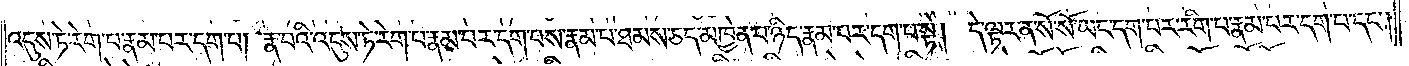འདུས་ཏེ་རེག་པ་རྣམ་པར་དག་པ། རྣ་བའི་འདུས་ཏེ་རེག་པ་རྣམ་པར་དག་པས་རྣམ་པ་ཐམས་ཅད་མཁྱེན་པ་ཉིད་རྣམ་པར་དག་པ་སྟེ། དེ་ལྟར་ན་སོ་སོ་ཡང་དག་པར་རིག་པ་རྣམ་པར་དག་པ་དང༌།
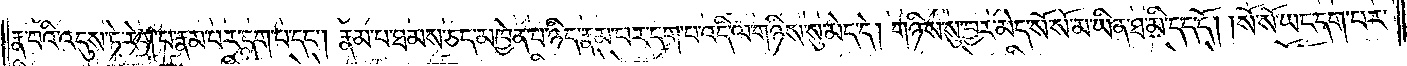རྣ་བའི་འདུས་ཏེ་རེག་པ་རྣམ་པར་དག་པ་དང༌། རྣམ་པ་ཐམས་ཅད་མཁྱེན་པ་ཉིད་རྣམ་པར་དག་པ་འདི་ལ་གཉིས་སུ་མེད་དེ། གཉིས་སུ་བྱར་མེད་སོ་སོ་མ་ཡིན་ཐ་མི་དད་དོ། །སོ་སོ་ཡང་དག་པར་
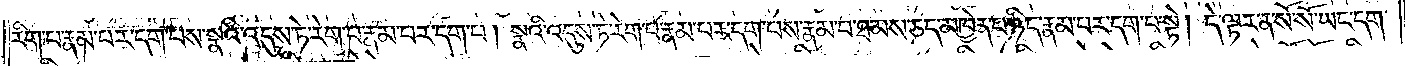རིག་པ་རྣམ་པར་དག་པས་སྣའི་འདུས་ཏེ་རེག་པ་རྣམ་པར་དག་པ། སྣའི་འདུས་ཏེ་རེག་པ་རྣམ་པར་དག་པས་རྣམ་པ་ཐམས་ཅད་མཁྱེན་པ་ཉིད་རྣམ་པར་དག་པ་སྟེ། དེ་ལྟར་ན་སོ་སོ་ཡང་དག་
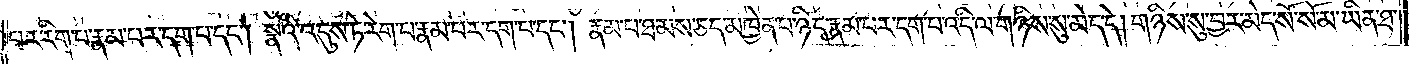པར་རིག་པ་རྣམ་པར་དག་པ་དང༌། སྣའི་འདུས་ཏེ་རེག་པ་རྣམ་པར་དག་པ་དང༌། རྣམ་པ་ཐམས་ཅད་མཁྱེན་པ་ཉིད་རྣམ་པར་དག་པ་འདི་ལ་གཉིས་སུ་མེད་དེ། གཉིས་སུ་བྱར་མེད་སོ་སོ་མ་ཡིན་ཐ་
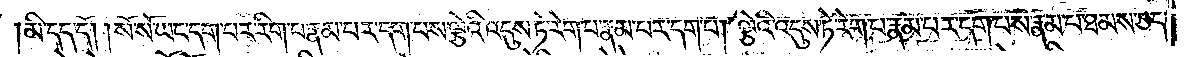མི་དད་དོ། །སོ་སོ་ཡང་དག་པར་རིག་པ་རྣམ་པར་དག་པས་ལྕེའི་འདུས་ཏེ་རེག་པ་རྣམ་པར་དག་པ། ལྕེའི་འདུས་ཏེ་རེག་པ་རྣམ་པར་དག་པས་རྣམ་པ་ཐམས་ཅད་
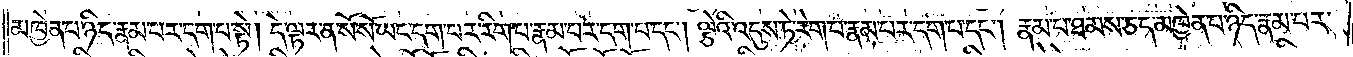མཁྱེན་པ་ཉིད་རྣམ་པར་དག་པ་སྟེ། དེ་ལྟར་ན་སོ་སོ་ཡང་དག་པར་རིག་པ་རྣམ་པར་དག་པ་དང༌། ལྕེའི་འདུས་ཏེ་རེག་པ་རྣམ་པར་དག་པ་དང༌། རྣམ་པ་ཐམས་ཅད་མཁྱེན་པ་ཉིད་རྣམ་པར་
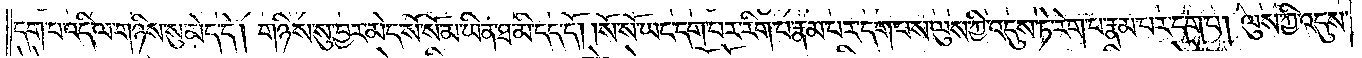དག་པ་འདི་ལ་གཉིས་སུ་མེད་དེ། གཉིས་སུ་བྱར་མེད་སོ་སོ་མ་ཡིན་ཐ་མི་དང་དོ། །སོ་སོ་ཡང་དག་པར་རིག་པ་རྣམ་པར་དག་པས་ལུས་ཀྱི་འདུས་ཏེ་རེག་པ་རྣམ་པར་དག་པ། ལུས་ཀྱི་འདུས་
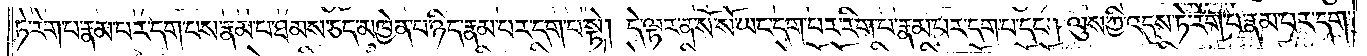ཏེ་རེག་པ་རྣམ་པར་དག་པས་རྣམ་པ་ཐམས་ཅད་མཁྱེན་པ་ཉིད་རྣམ་པར་དག་པ་སྟེ། དེ་ལྟར་ན་སོ་སོ་ཡང་དག་པར་རིག་པ་རྣམ་པར་དག་པ་དང༌། ལུས་ཀྱི་འདུས་ཏེ་རེག་པ་རྣམ་པར་དག་
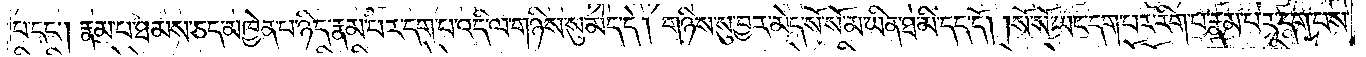པ་དང༌། རྣམ་པ་ཐམས་ཅད་མཁྱེན་པ་ཉིད་རྣམ་པར་དག་པ་འདི་ལ་གཉིས་སུ་མེད་དེ། གཉིས་སུ་བྱར་མེད་སོ་སོ་མ་ཡིན་ཐ་མི་དད་དོ། །སོ་སོ་ཡང་དག་པར་རིག་པ་རྣམ་པར་དག་པས་
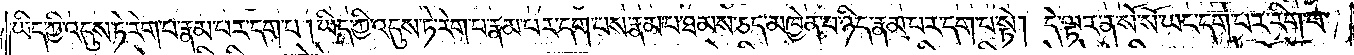ཡིད་ཀྱི་འདུས་ཏེ་རེག་པ་རྣམ་པར་དག་པ། ཡིད་ཀྱི་འདུས་ཏེ་རེག་པ་རྣམ་པར་དག་པས་རྣམ་པ་ཐམས་ཅད་མཁྱེན་པ་ཉིད་རྣམ་པར་དག་པ་སྟེ། དེ་ལྟར་ན་སོ་སོ་ཡང་དག་པར་རིག་པ་
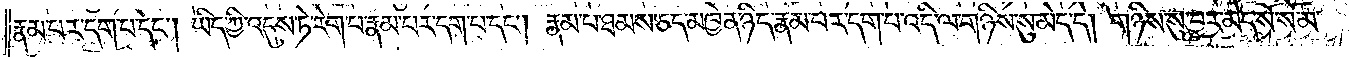རྣམ་པར་དག་པ་དང༌། ཡིད་ཀྱི་འདུས་ཏེ་རེག་པ་རྣམ་པར་དག་པ་དང༌། རྣམ་པ་ཐམས་ཅད་མཁྱེན་པ་ཉིད་རྣམ་པར་དག་པ་འདི་ལ་གཉིས་སུ་མེད་དེ། གཉིས་སུ་བྱར་མེད་སོ་སོ་མ་
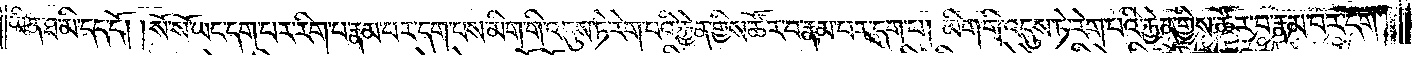ཡིན་ཐ་མི་དད་དོ། །སོ་སོ་ཡང་དག་པར་རིག་པ་རྣམ་པར་དག་པས་མིག་གི་འདུས་ཏེ་རེག་པའི་རྐྱེན་གྱིས་ཚོར་བ་རྣམ་པར་དག་པ། མིག་གི་འདུས་ཏེ་རེག་པའི་རྐྱེན་གྱིས་ཚོར་བ་རྣམ་པར་དག་
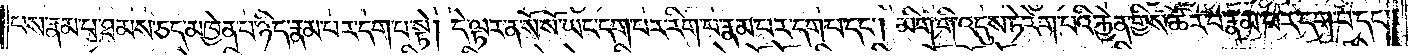པས་རྣམ་པ་ཐམས་ཅད་མཁྱེན་པ་ཉིད་རྣམ་པར་དག་པ་སྟེ། དེ་ལྟར་ན་སོ་སོ་ཡང་དག་པར་རིག་པ་རྣམ་པར་དག་པ་དང༌། མིག་གི་འདུས་ཏེ་རེག་པའི་རྐྱེན་གྱིས་ཚོར་བ་རྣམ་པར་དག་པ་དང༌།
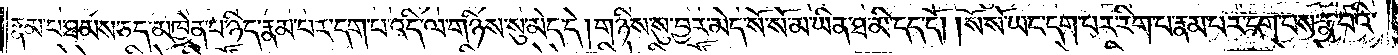རྣམ་པ་ཐམས་ཅད་མཁྱེན་པ་ཉིད་རྣམ་པར་དག་པ་འདི་ལ་གཉིས་སུ་མེད་དེ། གཉིས་སུ་བྱར་མེད་སོ་སོ་མ་ཡིན་ཐ་མ་དད་དོ། །སོ་སོ་ཡང་དག་པར་རིག་པ་རྣམ་པར་དག་པས་རྣ་བའི་
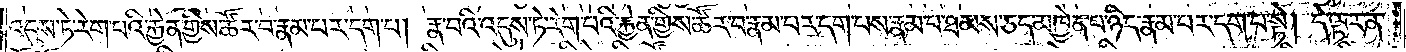འདུས་ཏེ་རེག་པའི་རྐྱེན་གྱིས་ཚོར་བ་རྣམ་པར་དག་པ། རྣ་བའི་འདུས་ཏེ་རེག་པའི་རྐྱེན་གྱིས་ཚོར་བ་རྣམ་པར་དག་པས་རྣམ་པ་ཐམས་ཅད་མཁྱེན་པ་ཉིད་རྣམ་པར་དག་པ་སྟེ། དེ་ལྟར་ན་
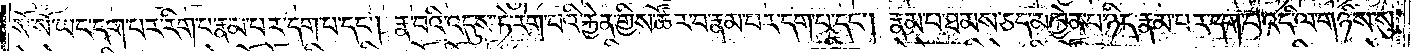སོ་སོ་ཡང་དག་པར་རིག་པ་རྣམ་པར་དག་པ་དང༌། རྣ་བའི་འདུས་ཏེ་རེག་པའི་རྐྱེན་གྱིས་ཚོར་བ་རྣམ་པར་དག་པ་དང༌། རྣམ་པ་ཐམས་ཅད་མཁྱེན་པ་ཉིད་རྣམ་པར་དག་པ་འདི་ལ་གཉིས་སུ་
